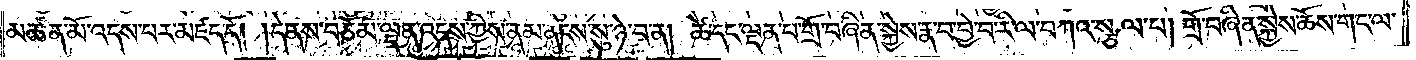མཚན་མོ་འདས་པར་མཛད་དོ། །དེ་ནས་བཅོམ་ལྡན་འདས་ཀྱིས་ནམ་ནངས་སུ་ཉེ་བ་ན། ཚེ་དང་ལྡན་པ་གྲོ་བཞིན་སྐྱེས་རྣ་བ་བྱེ་བ་རི་ལ་བཀའ་སྩལ་པ། གྲོ་བཞིན་སྐྱེས་ཆོས་གང་ལ་
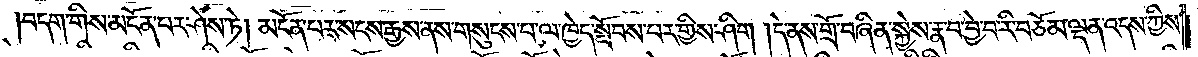བདག་གིས་མངོན་པར་ཤེས་ཏེ། མངོན་པར་སངས་རྒྱས་ནས་གསུངས་པ་ལ་ཁྱེད་སྤོབས་པར་གྱིས་ཤིག །དེ་ནས་གྲོ་བཞིན་སྐྱེས་རྣ་བ་བྱེ་བ་རི་བཅོམ་ལྡན་འདས་ཀྱིས་
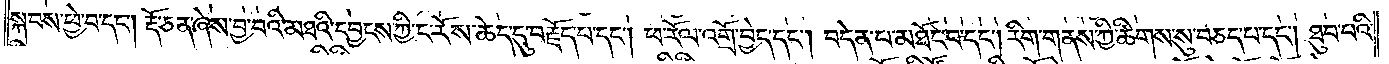སྐབས་ཕྱེ་བ་དང༌། རྡོ་ཅན་ཞེས་བྱ་བའི་མཐའི་དབྱངས་ཀྱི་ང་རོས་ཆེད་དུ་བརྗོད་པ་དང༌། ཕ་རོལ་འགྲོ་བྱེད་དང༌། བདེན་པ་མཐོང་བ་དང༌། རིག་གནས་ཀྱི་ཚིགས་སུ་བཅད་པ་དང༌། ཐུབ་པའི་
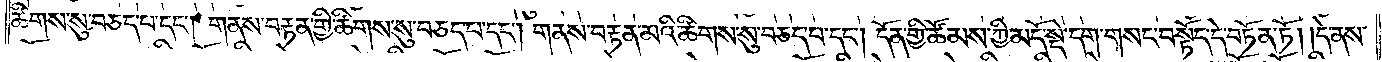ཚིགས་སུ་བཅད་པ་དང༌། གནས་བརྟན་གྱི་ཚིགས་སུ་བཅད་པ་དང༌། གནས་བརྟན་མའི་ཚིགས་སུ་བཅད་པ་དང༌། དོན་གྱི་ཚོམས་ཀྱི་མདོ་སྡེ་དག་གསང་བསྟོད་དེ་བཏོན་ཏོ། །དེ་ནས་
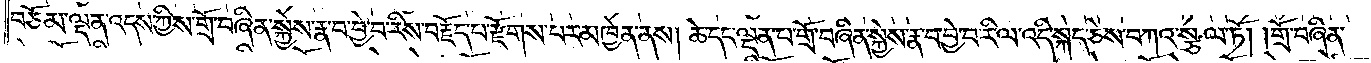བཅོམ་ལྡན་འདས་ཀྱིས་གྲོ་བཞིན་སྐྱེས་རྣ་བ་བྱེ་བ་རིས་བརྗོད་པ་རྫོགས་པར་མཁྱེན་ནས། ཚེ་དང་ལྡན་པ་གྲོ་བཞིན་སྐྱེས་རྣ་བ་བྱེ་བ་རིལ་འདི་སྐད་ཅེས་བཀའ་སྩལ་ཏོ། །གྲོ་བཞིན་
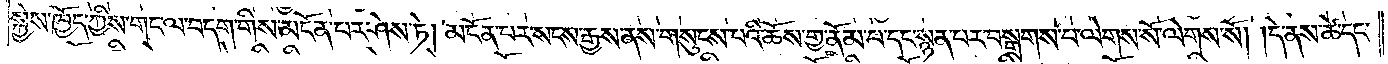སྐྱེས་ཁྱོད་ཀྱིས་གང་ལ་བདག་གིས་མངོན་པར་ཤེས་ཏེ། མངོན་པར་སངས་རྒྱས་ནས་གསུངས་པའི་ཆོས་གྱ་ནོམ་པ་དང་སྙན་པར་བསྒྲགས་པ་ལེགས་སོ་ལེགས་སོ། །དེ་ནས་ཚེ་དང་
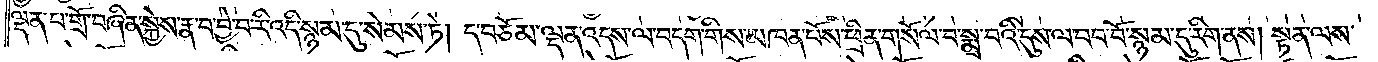ལྡན་པ་གྲོ་བཞིན་སྐྱེས་རྣ་བ་བྱེ་བ་རི་འདི་སྙམ་དུ་སེམས་ཏེ། དེ་བཅོམ་ལྡན་འདས་ལ་བདག་གིས་མཁན་པོས་ཕྲིན་གསོལ་བ་སྨྲ་བའི་དུས་ལ་བབ་བོ་སྙམ་དུ་རིག་ནས། སྟན་ལས་
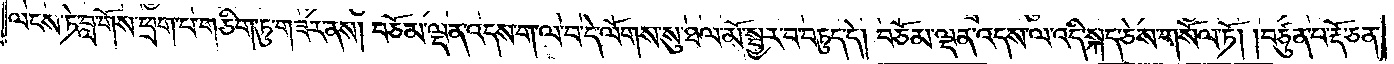ལངས་ཏེ་བླ་གོས་ཕྲག་པ་གཅིག་ཏུ་གཟར་ནས། བཅོམ་ལྡན་འདས་ག་ལ་བ་དེ་ལོགས་སུ་ཐལ་མོ་སྦྱར་བ་བཏུད་དེ། བཅོམ་ལྡན་འདས་ལ་འདི་སྐད་ཅེས་གསོལ་ཏོ། །བཙུན་པ་རྡོ་ཅན་
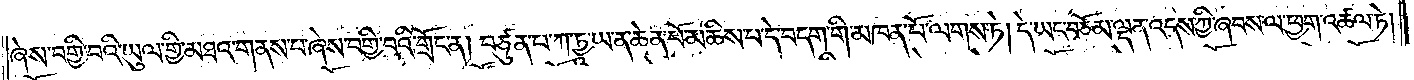ཞེས་བགྱི་བའི་ཡུལ་གྱི་མཐའ་གནས་པ་ཞེས་བགྱི་བའི་གྲོང་ན། བཙུན་པ་ཀ་ཏྱཱ་ཡ་ན་ཆེན་པོ་མཆིས་པ་དེ་བདག་གི་མཁན་པོ་ལགས་ཏེ། དེ་ཡང་བཅོམ་ལྡན་འདས་ཀྱི་ཞབས་ལ་ཕྱག་འཚལ་ཏེ།
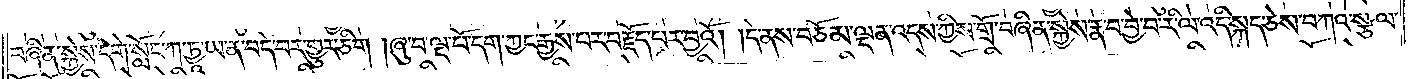བཞིན་སྐྱེས་དགེ་སློང་ཀ་ཏྱཱ་ཡ་ན་བདེ་བར་གྱུར་ཅིག །ཞུ་བ་ལྔ་པོ་དག་ཀྱང་རྒྱས་པར་བརྗོད་པར་བྱའོ། །དེ་ནས་བཅོམ་ལྡན་འདས་ཀྱིས་གྲོ་བཞིན་སྐྱེས་རྣ་བ་བྱེ་བ་རི་ལ་འདི་སྐད་ཅེས་བཀའ་སྩལ་
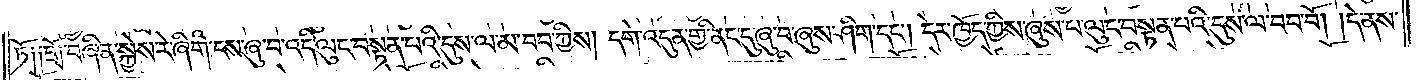ཏོ༑ ༑  གྲོ་བཞིན་སྐྱེས་རེ་ཞིག་ངས་ཞུ་བ་འདི་ལུང་བསྟན་པའི་དུས་ལ་མ་བབ་ཀྱིས། དགེ་འདུན་གྱི་ནང་དུ་ཞུ་བ་ཞུས་ཤིག་དང༌། དེར་ཁྱོད་ཀྱིས་ཞུས་པ་ལུང་བསྟན་པའི་དུས་ལ་བབ་བོ། །དེ་ནས་
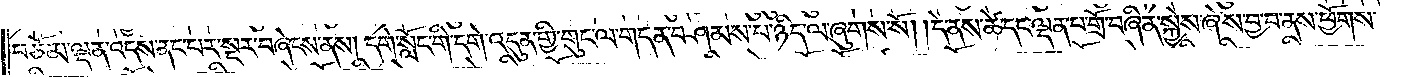བཅོམ་ལྡན་འདས་ནང་པར་སྔར་བཞེངས་ནས། དགེ་སློང་གི་དགེ་འདུན་གྱི་གུང་ལ་གདན་བཤམས་པ་ཉིད་ལ་ཞུགས་སོ། །དེ་ནས་ཚེ་དང་ལྡན་པ་གྲོ་བཞིན་སྐྱེས་ཞེས་བྱ་བ་ནས་ཕྱོགས་
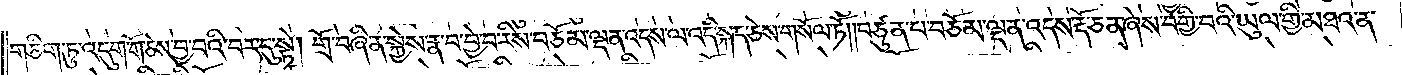གཅིག་ཏུ་འདུག་གོ་ཅེས་བྱ་བའི་བར་དུ་སྟེ། གྲོ་བཞིན་སྐྱེས་རྣ་བ་བྱེ་བ་རིས་བཅོམ་ལྡན་འདས་ལ་འདི་སྐད་ཅེས་གསོལ་ཏོ། །བཙུན་པ་བཅོམ་ལྡན་འདས་རྡོ་ཅན་ཞེས་བགྱི་བའི་ཡུལ་གྱི་མཐའ་ན་
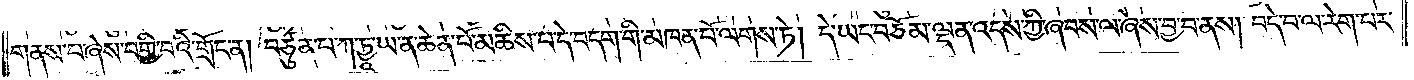གནས་པ་ཞེས་བགྱི་བའི་གྲོང་ན། བཙུན་པ་ཀ་ཏྱཱ་ཡ་ན་ཆེན་པོ་མཆིས་པ་དེ་བདག་གི་མཁན་པོ་ལགས་ཏེ། དེ་ཡང་བཅོམ་ལྡན་འདས་ཀྱི་ཞབས་ལ་ཞེས་བྱ་བ་ནས། བདེ་བ་ལ་རེག་པར་
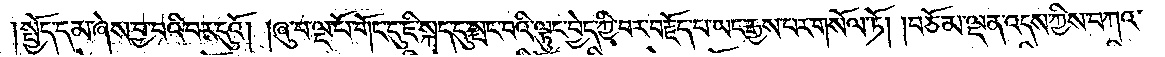སྤྱོད་དམ་ཞེས་བྱ་བའི་བར་དུའོ། །ཞུ་བ་ལྔ་པོ་གོང་དུ་ཇི་སྐད་དུ་སྤང་བའི་ལྟུང་བྱེད་ཀྱི་བར་བརྗོད་པ་ཡང་རྒྱས་པར་གསོལ་ཏོ། །བཅོམ་ལྡན་འདས་ཀྱིས་བཀའ་
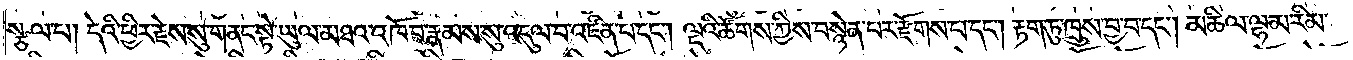སྩལ་པ། དེའི་ཕྱིར་རྗེས་སུ་གནང་སྟེ་ཡུལ་མཐའ་འཁོབ་རྣམས་སུ་འདུལ་བ་འཛིན་པ་དང༌། ལྔའི་ཚོགས་ཀྱིས་བསྙེན་པར་རྫོགས་པ་དང༌། རྟག་ཏུ་ཁྲུས་བྱ་བ་དང༌། མཆིལ་ལྷམ་རིམ་
